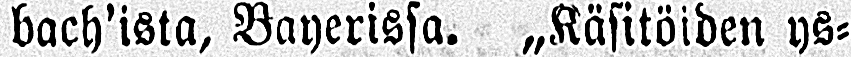bach’ista, Bayerissa. „Käsitöiden ys-
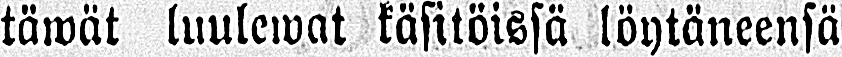täwät luulewat käsitöissä löytäneensä
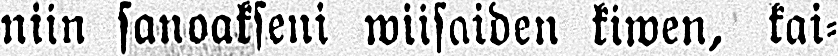niin sanoakseni wiisaiden kiwen, kai-
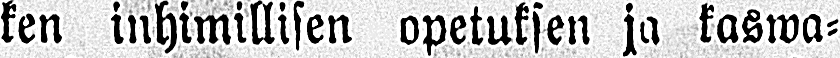ken inhimillisen opetuksen ja kaswa-
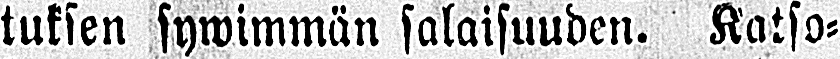tuksen sywimmän salaisuuden. Katso-
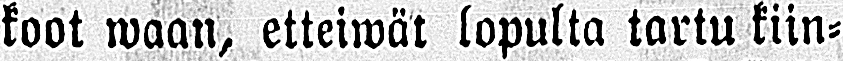koot waan, etteiwät lopulta tartu kiin-
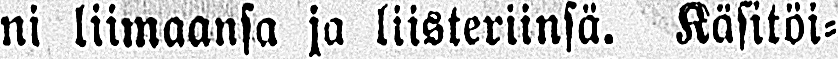ni liimaansa ja liisteriinsä. Käsitöi-
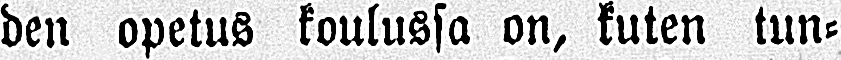den opetus koulussa on, kuten tun-
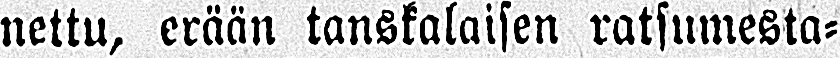nettu, erään tanskalaisen ratsumesta-
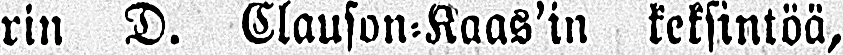rin D. Clauson-Kaas’in keksintöä,
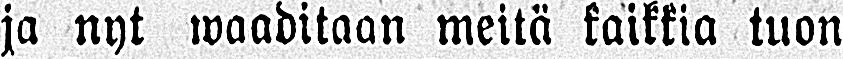ja nyt waaditaan meitä kaikkia tuon
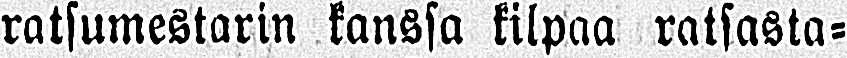ratsumestarin kanssa kilpaa ratsasta-
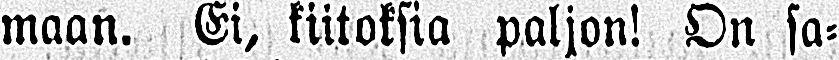maan. Ei, kiitoksia paljon! On sa-
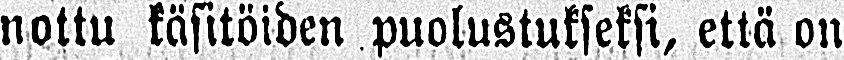nottu käsitöiden puolustukseksi, että on
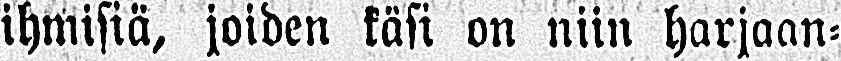ihmisiä, joiden käsi on niin harjaan-
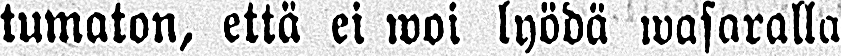tumaton, että ei woi lyödä wasaralla
